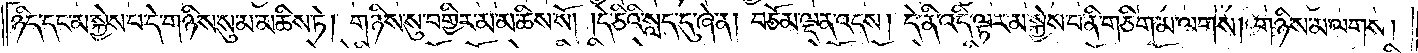ཉིད་དང་མ་སྐྱེས་པ་དེ་གཉིས་སུ་མ་མཆིས་ཏེ། གཉིས་སུ་བགྱིར་མ་མཆིས་སོ། །དེ་ཅིའི་སླད་དུ་ཞེ་ན། བཅོམ་ལྡན་འདས། དེ་ནི་འདི་ལྟར་མ་སྐྱེས་པ་ནི་གཅིག་མ་ལགས། གཉིས་མ་ལགས།
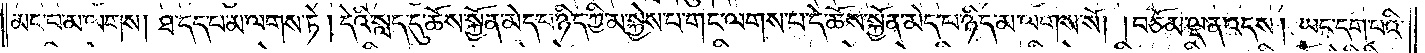མང་བ་མ་ལགས། ཐ་དད་པ་མ་ལགས་ཏེ། དེའི་སླད་དུ་ཆོས་སྐྱོན་མེད་པ་ཉིད་ཀྱི་མ་སྐྱེས་པ་གང་ལགས་པ་དེ་ཆོས་སྐྱོན་མེད་པ་ཉིད་མ་ལགས་སོ། །བཅོམ་ལྡན་འདས། ཡང་དག་པའི་
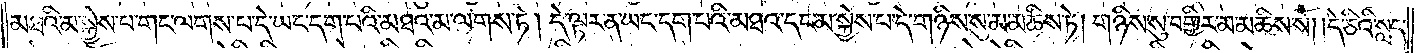མཐའི་མ་སྐྱེས་པ་གང་ལགས་པ་དེ་ཡང་དག་པའི་མཐའ་མ་ལགས་ཏེ། དེ་ལྟར་ན་ཡང་དག་པའི་མཐའ་དང་མ་སྐྱེས་པ་དེ་གཉིས་སུ་མ་མཆིས་ཏེ། གཉིས་སུ་བགྱིར་མ་མཆིས་སོ། །དེ་ཅིའི་སླད་
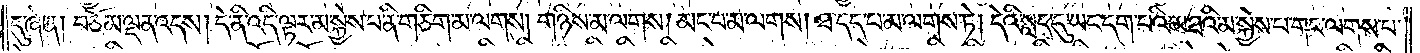དུ་ཞེ་ན། བཅོམ་ལྡན་འདས། དེ་ནི་འདི་ལྟར་མ་སྐྱེས་པ་ནི་གཅིག་མ་ལགས། གཉིས་མ་ལགས། མང་བ་མ་ལགས། ཐ་དད་པ་མ་ལགས་ཏེ། དེའི་སླད་དུ་ཡང་དག་པའི་མཐའི་མ་སྐྱེས་པ་གང་ལགས་པ་
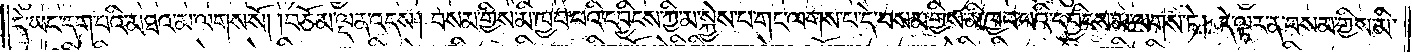དེ་ཡང་དག་པའི་མཐའ་མ་ལགས་སོ། །བཅོམ་ལྡན་འདས། བསམ་གྱིས་མི་ཁྱབ་པའི་དབྱིངས་ཀྱི་མ་སྐྱེས་པ་གང་ལགས་པ་དེ་བསམ་གྱིས་མི་ཁྱབ་པའི་དབྱིངས་མ་ལགས་ཏེ། དེ་ལྟར་ན་བསམ་གྱིས་མི་
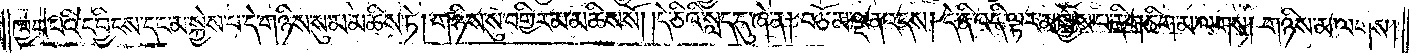ཁྱབ་པའི་དབྱིངས་དང་མ་སྐྱེས་པ་དེ་གཉིས་སུ་མ་མཆིས་ཏེ། གཉིས་སུ་བགྱིར་མ་མཆིས་སོ། །དེ་ཅིའི་སླད་དུ་ཞེ་ན། བཅོམ་ལྡན་འདས། དེ་ནི་འདི་ལྟར་མ་སྐྱེས་པ་ནི་གཅིག་མ་ལགས། གཉིས་མ་ལགས།
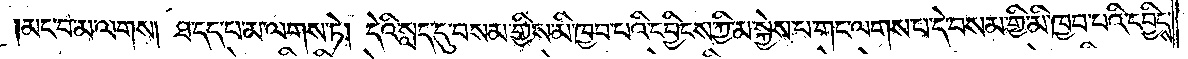མང་བ་མ་ལགས། ཐ་དད་པ་མ་ལགས་ཏེ། དེའི་སླད་དུ་བསམ་གྱིས་མི་ཁྱབ་པའི་དབྱིངས་ཀྱི་མ་སྐྱེས་པ་གང་ལགས་པ་དེ་བསམ་གྱི་མི་ཁྱབ་པའི་དབྱིངས་
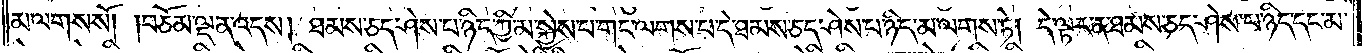མ་ལགས་སོ། །བཅོམ་ལྡན་འདས། ཐམས་ཅད་ཤེས་པ་ཉིད་ཀྱི་མ་སྐྱེས་པ་གང་ལགས་པ་དེ་ཐམས་ཅད་ཤེས་པ་ཉིད་མ་ལགས་ཏེ། དེ་ལྟར་ན་ཐམས་ཅད་ཤེས་པ་ཉིད་དང་མ་
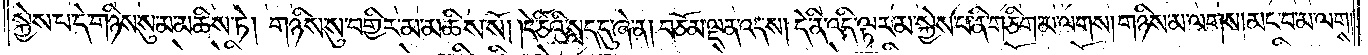སྐྱེས་པ་དེ་གཉིས་སུ་མ་མཆིས་ཏེ། གཉིས་སུ་བགྱིར་མ་མཆིས་སོ། །དེ་ཅིའི་སླད་དུ་ཞེ་ན། བཅོམ་ལྡན་འདས། དེ་ནི་འདི་ལྟར་མ་སྐྱེས་པ་ནི་གཅིག་མ་ལགས། གཉིས་མ་ལགས། མང་བ་མ་ལགས།
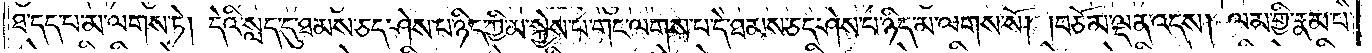ཐ་དད་པ་མ་ལགས་ཏེ། དེའི་སླད་དུ་ཐམས་ཅད་ཤེས་པ་ཉིད་ཀྱི་མ་སྐྱེས་པ་གང་ལགས་པ་དེ་ཐམས་ཅད་ཤེས་པ་ཉིད་མ་ལགས་སོ། །བཅོམ་ལྡན་འདས། ལམ་གྱི་རྣམ་པ་
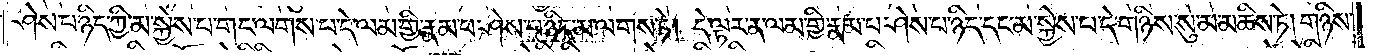ཤེས་པ་ཉིད་ཀྱི་མ་སྐྱེས་པ་གང་ལགས་པ་དེ་ལམ་གྱི་རྣམ་པ་ཤེས་པ་ཉིད་མ་ལགས་ཏེ། དེ་ལྟར་ན་ལམ་གྱི་རྣམ་པ་ཤེས་པ་ཉིད་དང་མ་སྐྱེས་པ་དེ་གཉིས་སུ་མ་མཆིས་ཏེ། གཉིས་
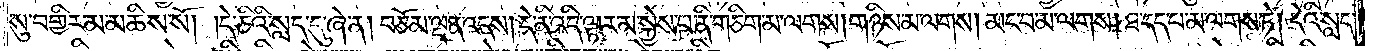སུ་བགྱིར་མ་མཆིས་སོ། །དེ་ཅིའི་སླད་དུ་ཞེ་ན། བཅོམ་ལྡན་འདས། དེ་ནི་འདི་ལྟར་མ་སྐྱེས་པ་ནི་གཅིག་མ་ལགས། གཉིས་མ་ལགས། མང་བ་མ་ལགས། ཐ་དད་པ་མ་ལགས་ཏེ། དེའི་སླད་
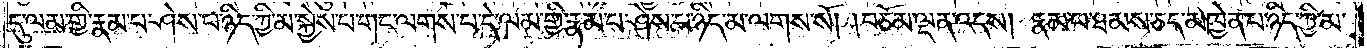དུ་ལམ་གྱི་རྣམ་པ་ཤེས་པ་ཉིད་ཀྱི་མ་སྐྱེས་པ་གང་ལགས་པ་དེ་ལམ་གྱི་རྣམ་པ་ཤེས་པ་ཉིད་མ་ལགས་སོ། །བཅོམ་ལྡན་འདས། རྣམ་པ་ཐམས་ཅད་མཁྱེན་པ་ཉིད་ཀྱི་མ་
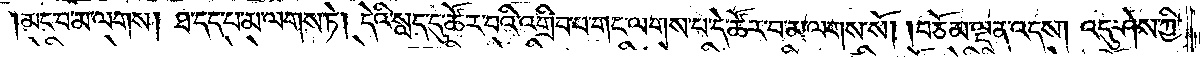མང་བ་མ་ལགས། ཐ་དད་པ་མ་ལགས་ཏེ། དེའི་སླད་དུ་ཚོར་བའི་འགྲིབ་པ་གང་ལགས་པ་དེ་ཚོར་བ་མ་ལགས་སོ། །བཅོམ་ལྡན་འདས། འདུ་ཤེས་ཀྱི་
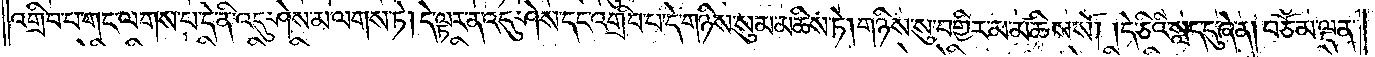འགྲིབ་པ་གང་ལགས་པ་དེ་ནི་འདུ་ཤེས་མ་ལགས་ཏེ། དེ་ལྟར་ན་འདུ་ཤེས་དང་འགྲིབ་པ་དེ་གཉིས་སུ་མ་མཆིས་ཏེ། གཉིས་སུ་བགྱིར་མ་མཆིས་སོ། །དེ་ཅིའི་སླད་དུ་ཞེ་ན། བཅོམ་ལྡན་
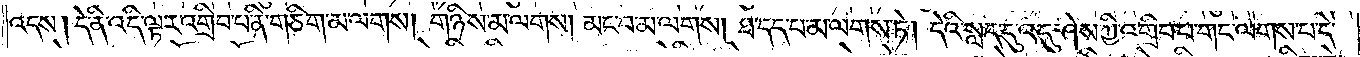འདས། དེ་ནི་འདི་ལྟར་འགྲིབ་པ་ནི་གཅིག་མ་ལགས། གཉིས་མ་ལགས། མང་བ་མ་ལགས། ཐ་དད་པ་མ་ལགས་ཏེ། དེའི་སླད་དུ་འདུ་ཤེས་ཀྱི་འགྲིབ་པ་གང་ལགས་པ་དེ་
